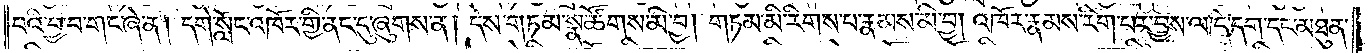པའི་བྱ་བ་གང་ཞེ་ན། དགེ་སློང་འཁོར་གྱི་ནང་དུ་ཞུགས་ན། དེས་གཏམ་སྣ་ཚོགས་མི་བྱ། གཏམ་མི་རིགས་པ་རྣམས་མི་བྱ། འཁོར་རྣམས་རིག་པར་བྱས་ལ་དེ་དག་དང་མཐུན་
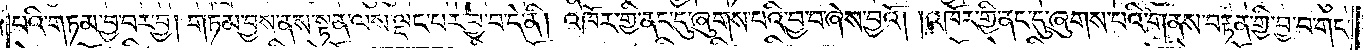པའི་གཏམ་བྱ་བར་བྱ། གཏམ་བྱས་ནས་སྟན་ལས་ལྡང་པར་བྱ་བ་དེ་ནི། འཁོར་གྱི་ནང་དུ་ཞུགས་པའི་བྱ་བ་ཞེས་བྱའོ། །འཁོར་གྱི་ནང་དུ་ཞུགས་པའི་གནས་བརྟན་གྱི་བྱ་བ་གང་
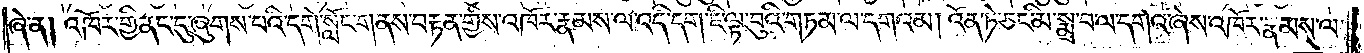ཞེ་ན། འཁོར་གྱི་ནང་དུ་ཞུགས་པའི་དགེ་སློང་གནས་བརྟན་གྱིས་འཁོར་རྣམས་ལ་འདི་དག་ཇི་ལྟ་བུའི་གཏམ་ལ་དགའམ། འོན་ཏེ་ཅང་མི་སྨྲ་བ་ལ་དགའ་ཞེས་འཁོར་རྣམས་ལ་
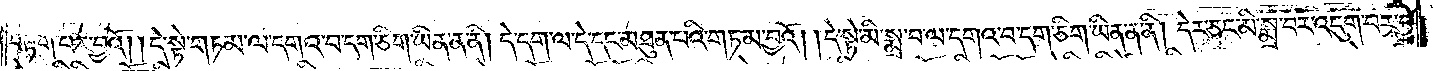བརྟག་པར་བྱའོ། །དེ་སྟེ་གཏམ་ལ་དགའ་བ་དག་ཅིག་ཡིན་ན་ནི། དེ་དག་ལ་དེ་དང་མཐུན་པའི་གཏམ་བྱའོ། །དེ་སྟེ་མི་སྨྲ་བ་ལ་དགའ་བ་དག་ཅིག་ཡིན་ན་ནི། དེར་ཅང་མི་སྨྲ་བར་འདུག་པར་བྱ་
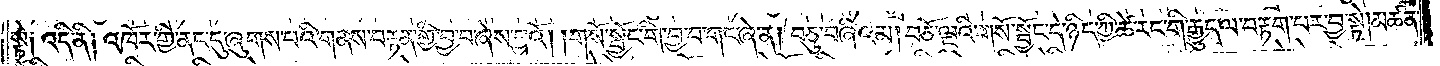སྟེ༑ འདི་ནི། འཁོར་གྱི་ནང་དུ་ཞུགས་པའི་གནས་བརྟན་གྱི་བྱ་བ་ཞེས་བྱའོ། །གསོ་སྦྱོང་གི་བྱ་བ་གང་ཞེ་ན། བཅུ་བཞིའམ། བཅོ་ལྔའི་གསོ་སྦྱོང་དེ་ཉིད་ཀྱི་ཚེ་རང་གི་རྒྱུད་ལ་བརྟག་པར་བྱ་སྟེ། མཚན་
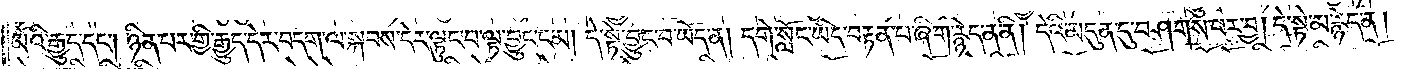མོའི་རྒྱུད་དང༌། ཉིན་པར་གྱི་རྒྱུད་དེར་བདག་ལ་སྐབས་དེར་ལྟུང་བ་ལྟ་བྱུང་ངམ། དེ་སྟེ་བྱུང་བ་ཡོད་ན། དགེ་སློང་ཡིད་བརྟན་པ་ཞིག་རྙེད་ན་ནི། དེའི་མདུན་དུ་བཤགས་པར་བྱ། དེ་སྟེ་མ་རྙེད་ན།
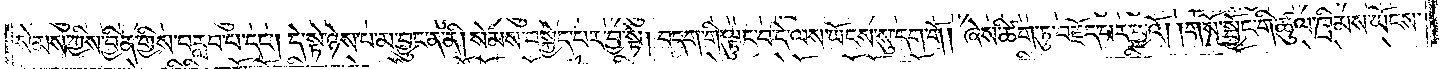སེམས་ཀྱིས་བྱིན་གྱིས་བརླབ་པ་དང༌། དེ་སྟེ་ཉེས་པ་མ་བྱུང་ན་ནི། སེམས་བསྐྱེད་པར་བྱ་སྟེ། བདག་གི་ལྟུང་བ་དེ་ལས་ཡོངས་སུ་དག་གོ །ཞེས་ཚིག་ཏུ་བརྗོད་པར་བྱའོ། གསོ་སྦྱོང་གི་ཚུལ་ཁྲིམས་ཡོངས་
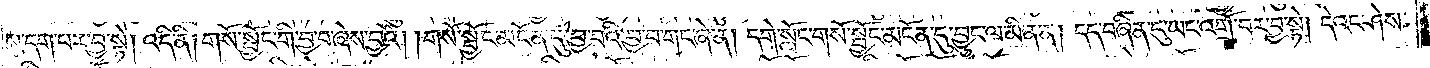སུ་དག་པར་བྱ་སྟེ། འདི་ནི། གསོ་སྦྱོང་གི་བྱ་བ་ཞེས་བྱའོ། །གསོ་སྦྱོང་མངོན་དུ་བྱ་བའི་བྱ་བ་གང་ཞེ་ན། དགེ་སློང་གསོ་སྦྱོང་མངོན་དུ་བྱུང་ལ་མིན་ན། དད་བཞིན་དུ་ཡང་འགྲོ་བར་བྱ་སྟེ། དེའང་ཤེས་
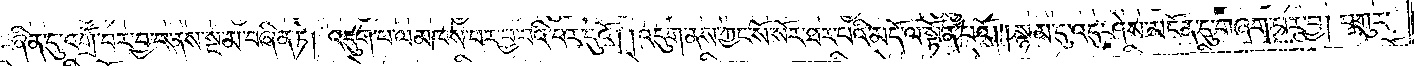བཞིན་དུ་འགྲོ་བར་བྱ་བ་ནས་སྔ་མ་བཞིན་ཏེ། འདུག་པ་ལ་མཁས་པར་བྱ་བའི་བར་དུའོ། །འདུག་ནས་ཀྱང་སོ་སོར་ཐར་བའི་མདོ་ལ་སྟོན་པའོ། །སྙམ་དུ་འདུ་ཤེས་མངོན་དུ་གཞག་པར་བྱ། བཀུར་
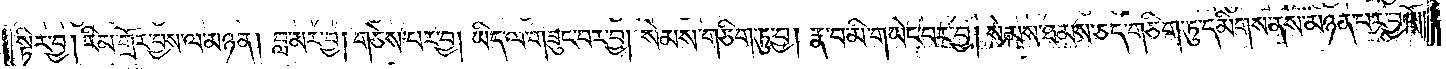སྟིར་བྱ། རིམ་གྲོར་བྱས་ལ་མཉན། བླ་མར་བྱ། གཅེས་པར་བྱ། ཡིད་ལ་གཟུང་བར་བྱ། སེམས་གཅིག་ཏུ་བྱ། རྣ་བ་མི་གཡེང་པར་བྱ། སེམས་ཐམས་ཅད་གཅིག་ཏུ་དམིགས་ནས་མཉན་པར་བྱའོ། །
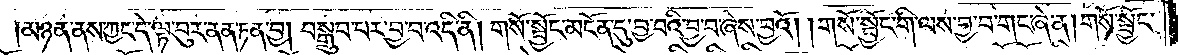མཉན་ནས་ཀྱང་དེ་ལྟ་བུར་ནན་ཏན་བྱ། བསྒྲུབ་པར་བྱ་བ་འདི་ནི། གསོ་སྦྱོང་མངོན་དུ་བྱ་བའི་བྱ་བ་ཞེས་བྱའོ། །གསོ་སྦྱོང་གི་ལས་བྱ་བ་གང་ཞེ་ན། གསོ་སྦྱོང་
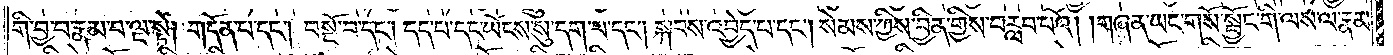གི་བྱ་བ་རྣམ་པ་ལྔ་སྟེ། གདོན་པ་དང༌། བསྔོ་བ་དང༌། དད་པ་དང་ཡོངས་སུ་དག་པ་དང༌། སྐབས་འབྱེད་པ་དང༌། སེམས་ཀྱིས་བྱིན་གྱིས་བརླབ་པའོ། །གཞན་ཡང་གསོ་སྦྱོང་གི་ལས་ལ་རྣམ་
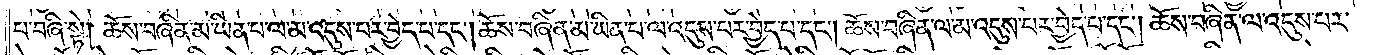བ་བཞི་སྟེ། ཆོས་བཞིན་མ་ཡིན་པ་ལ་མ་འདུས་པར་བྱེད་པ་དང༌། ཆོས་བཞིན་མ་ཡིན་པ་ལ་འདུས་པར་བྱེད་པ་དང༌། ཆོས་བཞིན་ལ་མ་འདུས་པར་བྱེད་པ་དང༌། ཆོས་བཞིན་ལ་འདུས་པར་
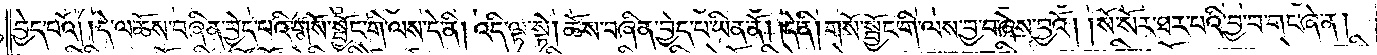བྱེད་པའོ། །དེ་ལ་ཆོས་བཞིན་བྱེད་པའི་གསོ་སྦྱོང་གི་ལས་དེ་ནི། འདི་ལྟ་སྟེ། ཆོས་བཞིན་བྱེད་པ་ཡིན་ནོ། །དེ་ནི། གསོ་སྦྱོང་གི་ལས་བྱ་བ་ཞེས་བྱའོ། །སོ་སོར་ཐར་པའི་བྱ་བ་གང་ཞེ་ན།
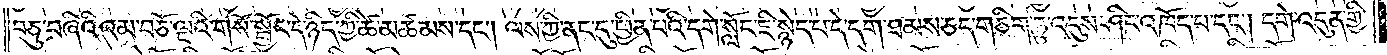བཅུ་བཞིའི་འམ་བཅོ་ལྔའི་གསོ་སྦྱོང་དེ་ཉིད་ཀྱི་ཚེ་མཚམས་དང༌། ལས་ཀྱི་ནང་དུ་ཕྱིན་པའི་དགེ་སློང་ཇི་སྙེད་པ་དེ་དག་ཐམས་ཅད་གཅིག་ཏུ་འདུས་ཤིང་འཁོད་པ་དང༌། དགེ་འདུན་གྱི་
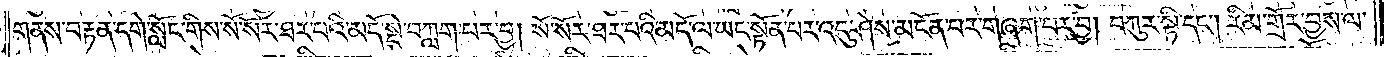གནས་བརྟན་དགེ་སློང་གིས་སོ་སོར་ཐར་པའི་མདོ་སྡེ་བཀླག་པར་བྱ། སོ་སོར་ཐར་བའི་མེད་ལ་ཡང་སྟོན་པར་འདུ་ཤེས་མངོན་པར་གཞག་པར་བྱ། །བཀུར་སྟི་དང༌། རིམ་གྲོར་བྱས་ལ་
